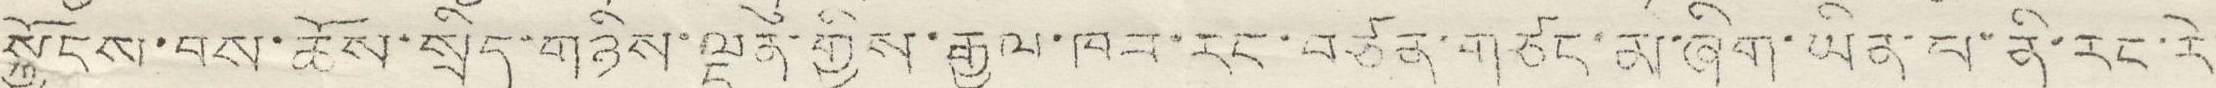སྐྱོངས་བས་ཆོས་སྲིད་གཉིས་ལྡན་གྱིས་རྒྱལ་ཁབ་རང་བཙན་གཙང་མ་ཞིག་ཡིན་པ་ནི་རང་རེ་
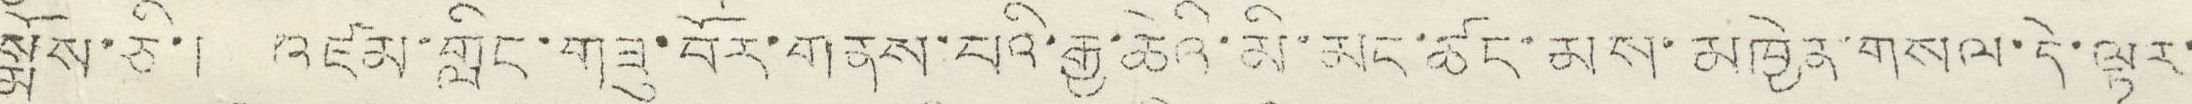སྨོས་ཅི་། འཛམ་གླིང་གཟུ་བོར་གནས་པའི་རྒྱ་ཆེའི་མི་མང་ཚང་མས་མཁྱེན་གསལ་དེ་ལྟར་
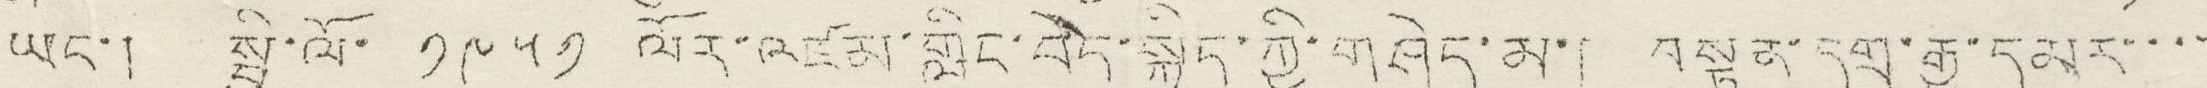ཡང་། སྤྱི་ལོ་ ༡༩༥༡ ལོར་འཛམ་གླིང་བདེ་སྐྱིད་ཀྱི་གཤེད་མ་། བསྟན་དགྲ་རྒྱ་དམར་་་་
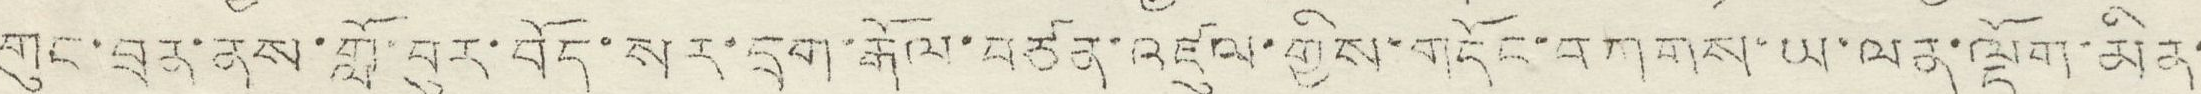གུང་བྲན་ནས་གློ་བུར་བོད་སར་དྲག་རྒོལ་བཙན་འཛུལ་གྱིས་གདོང་བགགས་ཡ་ལན་ལྡོག་མིན་
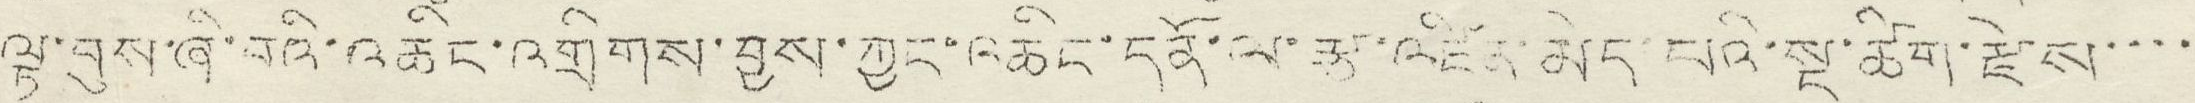ལྟ་བུས་ཞི་བའི་འཆིང་འགྲིགས་བྱས་ཀྱང་འཆིང་དོན་ལ་རྩ་འཛིན་མེད་པའི་སྔ་ཚིག་རྗེས་་་་
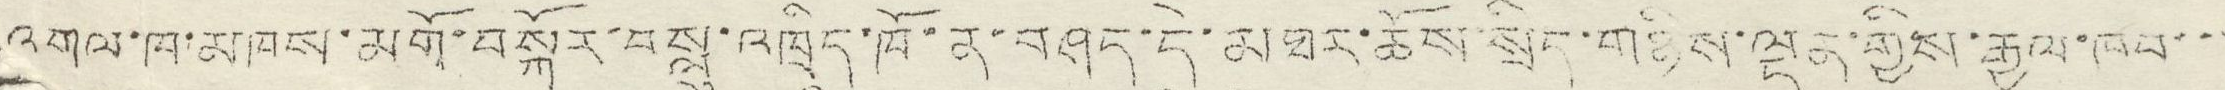འགལ་ཁ་མཁས་མགོ་བསྐོར་བསླུ་འཁྲིད་ཁོ་ན་བཤད་དེ་མཐར་ཆོས་སྲིད་གཉིས་ལྡན་གྱིས་རྒྱལ་ཁབ་་་
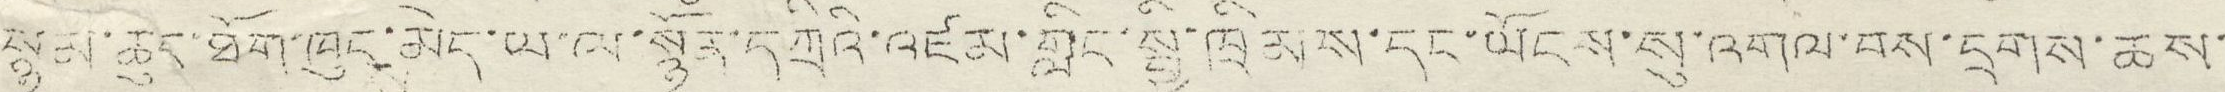སྙམ་ཆུང་ཐོག་ཁུང་མེད་ལ་ལ་སྙོན་དཀྲིའི་འཛམ་གླིང་སྤྱི་ཁྲིམས་དང་ཡོངས་སུ་འགལ་བས་དྲགས་ཆས་
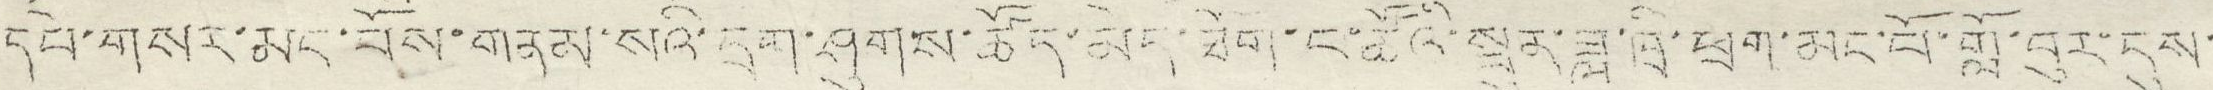དཔེ་གསར་མང་པོས་གནམ་སའི་དྲག་ཤུགས་ཚོད་མེད་ཐོག་ང་ཚོའི་སྤུན་ཟླ་ཁྲི་ཕྲག་མང་པོ་གློ་བུར་དུས་
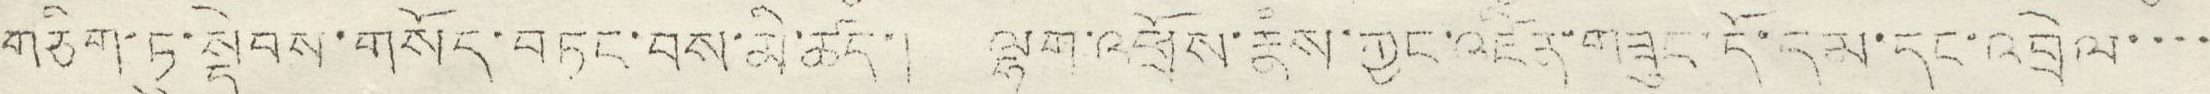གཅིག་ཏུ་སྡེབས་གསོད་བཏང་བས་མི་ཚད་། ལྷག་འཕྲོས་རྣཾས་ཀྱང་འཛིན་གཟུང་དོ་དམ་དང་འབྲེལ་་་་
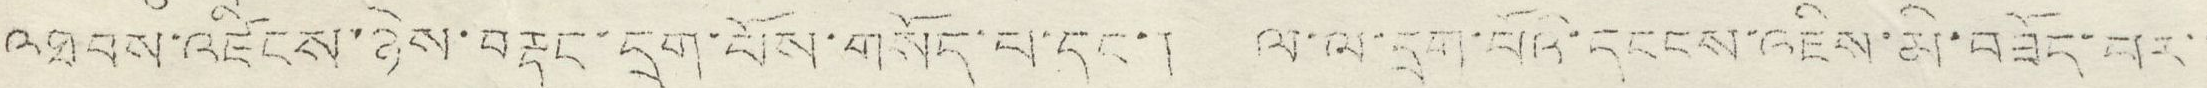འཐབས་འཛིངས་ཉེས་བརྡུང་དྲག་པོས་གསོད་པ་དང་། ལ་ལ་དྲག་པོའི་དངངས་འཇིས་མི་བཟོད་པར་་
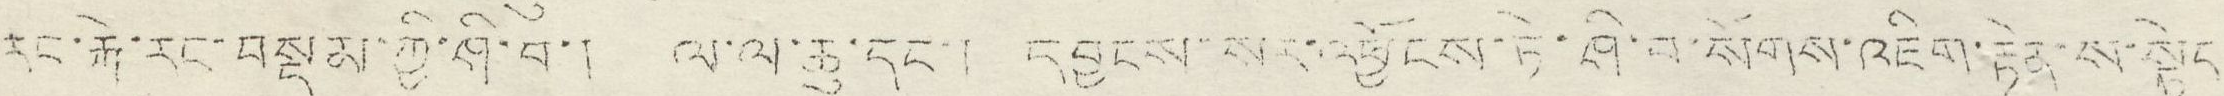རང་རྐེ་རང་བསྡམ་ཀྱི་ཤི་བ་། ལ་ལ་ཆུ་དང་། དབྱངས་སར་འཕྱོངས་ཏེ་ཤི་བ་སོགས་འཇིག་རྟེན་ས་སྟེང
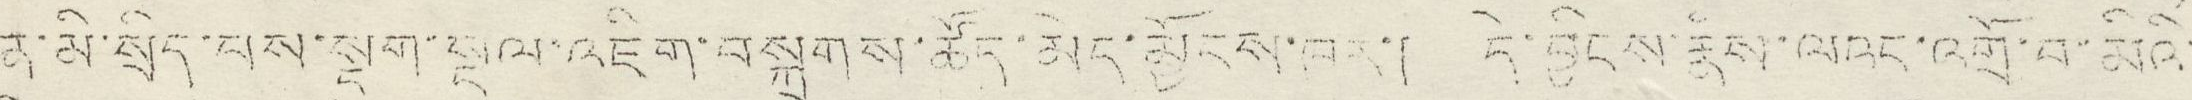མ་མི་སྲིད་པས་སྡུག་སྔལ་འཇིག་བསྐྲགས་ཚོད་མེད་མྱོངས་བར་། དེ་བྱིངས་རྣཾས་ལའང་འགྲོ་བ་མིའི་
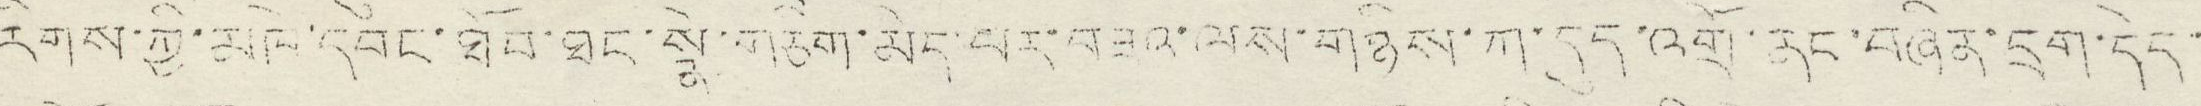རིགས་ཀྱི་མཁེ་དབང་ཐོབ་ཐང་སྣེ་གཅིག་མེད་པར་བཟའ་ལས་གཉིས་ཀ་དུད་འགྲོ་ནང་བཞིན་དྲག་དེད་
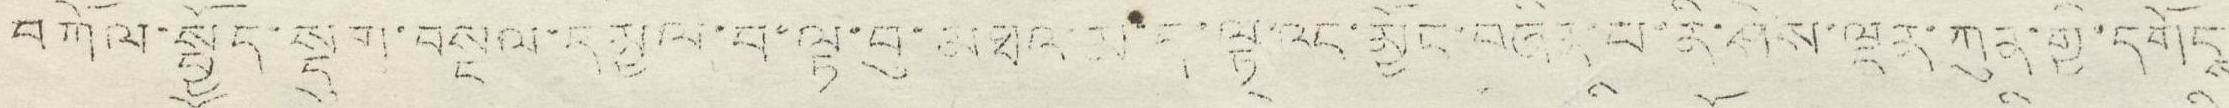བཀོལ་སྦྱོད་སྡུག་བསྔལ་དམྱལ་བ་ལྟ་བུ་མཐའ་མ་ད་ལྟའང་མྱོང་བཞིན་པ་ནི་ཤེས་ལྡན་ཀུན་གྱི་དགོངས
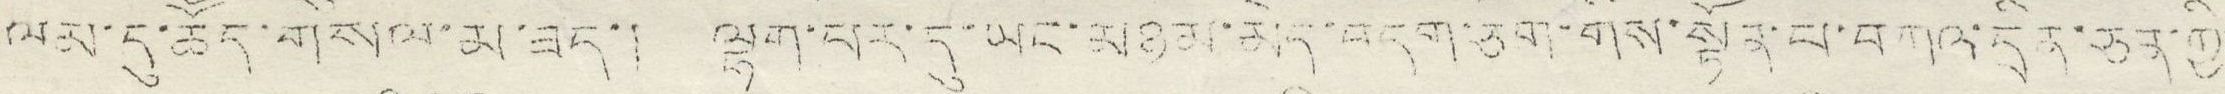ལམ་དུ་ཚོད་གསེལ་མ་ཟད་། ལྷག་པར་དུ་ཡང་མཉམ་མེད་བདག་ཅག་གིས་སྟོན་པ་བཀའ་དྲིན་ཅན་གྱི
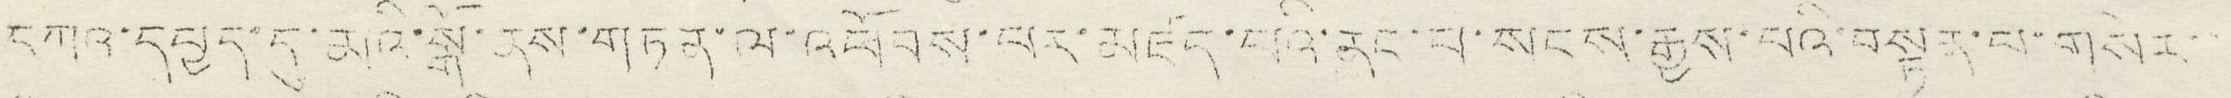དཀའ་དབྱད་དུ་མའི་སྒོ་ནས་གཏན་ལ་འཕོབས་པར་མཛད་པའི་ནང་པ་སངས་རྒྱས་པའི་བསྟན་པ་གསེར་་
